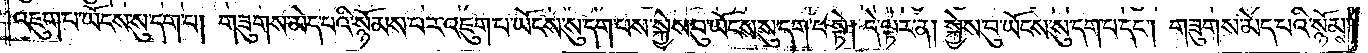འཇུག་པ་ཡོངས་སུ་དག་པ། གཟུགས་མེད་པའི་སྙོམས་པར་འཇུག་པ་ཡོངས་སུ་དག་པས་སྐྱེས་བུ་ཡོངས་སུ་དག་པ་སྟེ། དེ་ལྟར་ན། སྐྱེས་བུ་ཡོངས་སུ་དག་པ་དང༌། གཟུགས་མེད་པའི་སྙོམས་
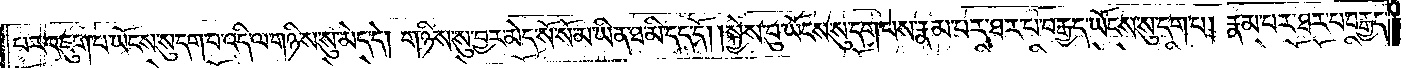པར་འཇུག་པ་ཡོངས་སུ་དག་པ་འདི་ལ་གཉིས་སུ་མེད་དེ། གཉིས་སུ་བྱར་མེད་སོ་སོ་མ་ཡིན་ཐ་མི་དད་དོ། སྐྱེས་བུ་ཡོངས་སུ་དག་པས་རྣམ་པར་ཐར་པ་བརྒྱད་ཡོངས་སུ་དག་པ། རྣམ་པར་ཐར་པ་བརྒྱད་
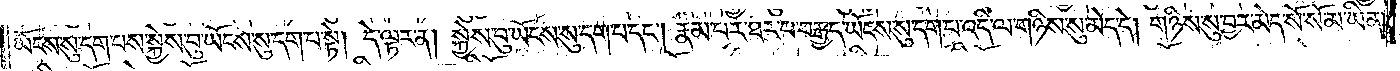ཡོངས་སུ་དག་པས་སྐྱེས་བུ་ཡོངས་སུ་དག་པ་སྟེ། དེ་ལྟར་ན། སྐྱེས་བུ་ཡོངས་སུ་དག་པ་དང༌། རྣམ་པར་ཐར་པ་བརྒྱད་ཡོངས་སུ་དག་པ་འདི་ལ་གཉིས་སུ་མེད་དེ། གཉིས་སུ་བྱར་མེད་སོ་སོ་མ་ཡིན་
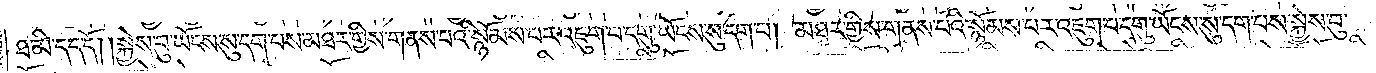ཐ་མི་དད་དོ། །སྐྱེས་བུ་ཡོངས་སུ་དག་པས་མཐར་གྱིས་གནས་པའི་སྙོམས་པར་འཇུག་པ་དགུ་ཡོངས་སུ་དག་པ། མཐར་གྱིས་གནས་པའི་སྙོམས་པར་འཇུག་པ་དགུ་ཡོངས་སུ་དག་པས་སྐྱེས་བུ་
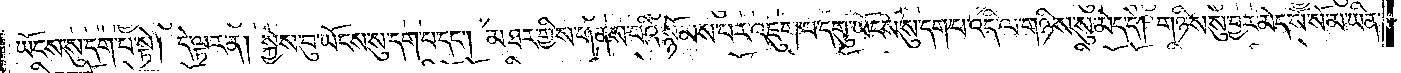ཡོངས་སུ་དག་པ་སྟེ། དེ་ལྟར་ན། སྐྱེས་བུ་ཡོངས་སུ་དག་པ་དང༌། མཐར་གྱིས་གནས་པའི་སྙོམས་པར་འཇུག་པ་དགུ་ཡོངས་སུ་དག་པ་འདི་ལ་གཉིས་སུ་མེད་དེ། གཉིས་སུ་བྱར་མེད་སོ་སོ་མ་ཡིན་
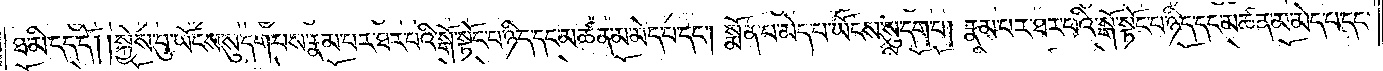ཐ་མི་དད་དོ། །སྐྱེས་བུ་ཡོངས་སུ་དག་པས་རྣམ་པར་ཐར་པའི་སྒོ་སྟོང་པ་ཉིད་དང་མཚན་མ་མེད་པ་དང༌། སྨོན་པ་མེད་པ་ཡོངས་སུ་དག་པ། རྣམ་པར་ཐར་པའི་སྒོ་སྟོང་པ་ཉིད་དང་མཚན་མ་མེད་པ་དང་
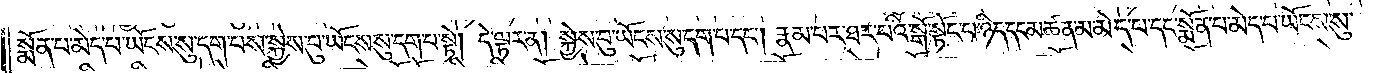སྨོན་པ་མེད་པ་ཡོངས་སུ་དག་པས་སྐྱེས་བུ་ཡོངས་སུ་དག་པ་སྟེ། དེ་ལྟར་ན། སྐྱེས་བུ་ཡོངས་སུ་དག་པ་དང༌། རྣམ་པར་ཐར་པའི་སྒོ་སྟོང་པ་ཉིད་དང་མཚན་མ་མེད་པ་དང་སྨོན་པ་མེད་པ་ཡོངས་སུ་
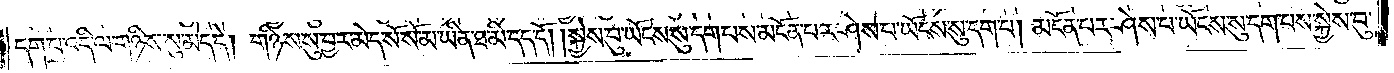དག་པ་འདི་ལ་གཉིས་སུ་མེད་དེ། གཉིས་སུ་བྱར་མེད་སོ་སོ་མ་ཡིན་ཐ་མི་དད་དོ། །སྐྱེས་བུ་ཡོངས་སུ་དག་པས་མངོན་པར་ཤེས་པ་ཡོངས་སུ་དག་པ། མངོན་པར་ཤེས་པ་ཡོངས་སུ་དག་པས་སྐྱེས་བུ་
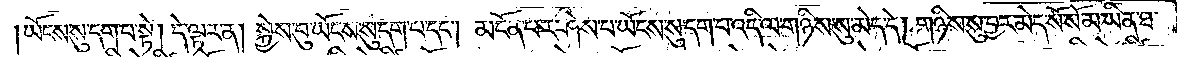ཡོངས་སུ་དག་པ་སྟེ། དེ་ལྟར་ན། སྐྱེས་བུ་ཡོངས་སུ་དག་པ་དང༌། མངོན་པར་ཤེས་པ་ཡོངས་སུ་དག་པ་འདི་ལ་གཉིས་སུ་མེད་དེ། གཉིས་སུ་བྱར་མེད་སོ་སོ་མ་ཡིན་ཐ་
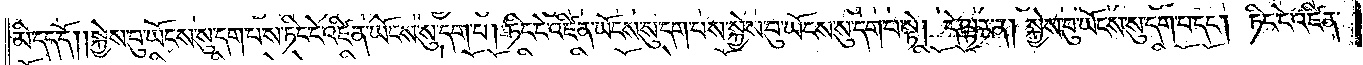མི་དད་དོ། །སྐྱེས་བུ་ཡོངས་སུ་དག་པས་ཏིང་ངེ་འཛིན་ཡོངས་སུ་དག་པ། ཏིང་ངེ་འཛིན་ཡོངས་སུ་དག་པས་སྐྱེས་བུ་ཡོངས་སུ་དག་པ་སྟེ། དེ་ལྟར་ན། སྐྱེས་བུ་ཡོངས་སུ་དག་པ་དང༌། ཏིང་ངེ་འཛིན་
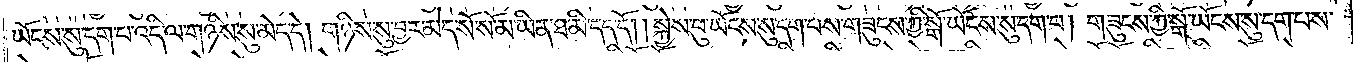ཡོངས་སུ་དག་པ་འདི་ལ་གཉིས་སུ་མེད་དེ། གཉིས་སུ་བྱར་མེད་སོ་སོ་མ་ཡིན་ཐ་མི་དད་དོ། །སྐྱེས་བུ་ཡོངས་སུ་དག་པས་གཟུངས་ཀྱི་སྒོ་ཡོངས་སུ་དག་པ། གཟུགས་ཀྱི་སྒོ་ཡོངས་སུ་དག་པས་
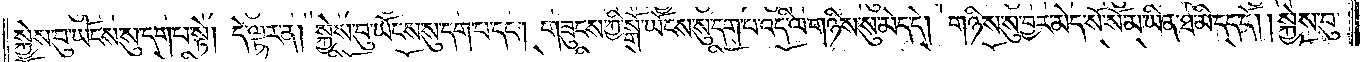སྐྱེས་བུ་ཡོངས་སུ་དག་པ་སྟེ། དེ་ལྟར་ན། སྐྱེས་བུ་ཡོངས་སུ་དག་པ་དང༌། གཟུངས་ཀྱི་སྒོ་ཡོངས་སུ་དག་པ་འདི་ལ་གཉིས་སུ་མེད་དེ། གཉིས་སུ་བྱར་མེད་སོ་སོ་མ་ཡིན་ཐ་མི་དད་དོ། །སྐྱེས་བུ་
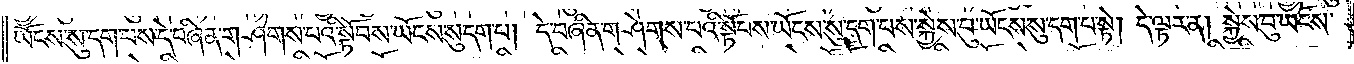ཡོངས་སུ་དག་པས་དེ་བཞིན་གཤེགས་པའི་སྟོབས་ཡོངས་སུ་དག་པ། དེ་བཞིན་གཤེགས་པའི་སྟོབས་ཡོངས་སུ་དག་པས་སྐྱེས་བུ་ཡོངས་སུ་དག་པ་སྟེ། དེ་ལྟར་ན། སྐྱེས་བུ་ཡོངས་
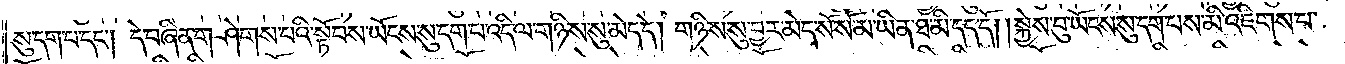སུ་དག་པ་དང༌། དེ་བཞིན་གཤེགས་པའི་སྟོབས་ཡོངས་སུ་དག་པ་འདི་ལ་གཉིས་སུ་མེད་དེ། གཉིས་སུ་བྱར་མེད་སོ་སོ་མ་ཡིན་ཐ་མི་དད་དོ། །སྐྱེས་བུ་ཡོངས་སུ་དག་པས་མི་འཇིགས་པ་
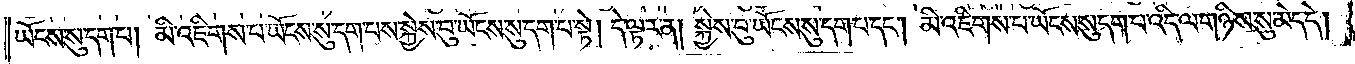ཡོངས་སུ་དག་པ། མི་འཇིགས་པ་ཡོངས་སུ་དག་པས་སྐྱེས་བུ་ཡོངས་སུ་དག་པ་སྟེ། དེ་ལྟར་ན། སྐྱེས་བུ་ཡོངས་སུ་དག་པ་དང༌། མི་འཇིགས་པ་ཡོངས་སུ་དག་པ་འདི་ལ་གཉིས་སུ་མེད་དེ།
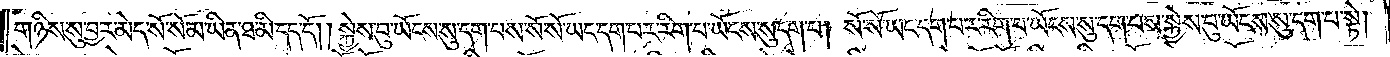གཉིས་སུ་བྱར་མེད་སོ་སོ་མ་ཡིན་ཐ་མི་དད་དོ། །སྐྱེས་བུ་ཡོངས་སུ་དག་པས་སོ་སོ་ཡང་དག་པར་རིག་པ་ཡོངས་སུ་དག་པ། སོ་སོ་ཡང་དག་པར་རིག་པ་ཡོངས་སུ་དག་པས་སྐྱེས་བུ་ཡོངས་སུ་དག་པ་སྟེ།
